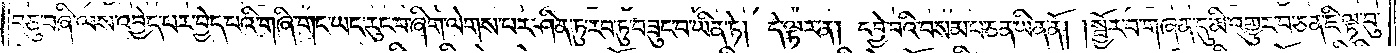བཅུ་བཞི་ལས་འབྱེད་པར་བྱེད་པའི་གཞི་གང་ཡང་རུང་བ་ཞིག་ལེགས་པར་ཤིན་ཏུ་རབ་ཏུ་བཟུང་བ་ཡིན་ཏེ། དེ་ལྟར་ན། དབྱེ་བའི་བསམ་པ་ཅན་ཡིན་ནོ། །སྦྱོར་བ་གཞན་དུ་མི་འགྱུར་བ་ཅན་ཇི་ལྟ་བུ་
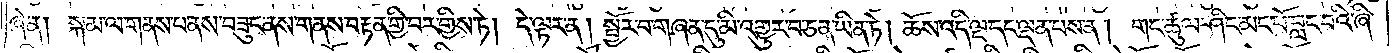ཞེ་ན། སྐམ་ལ་གནས་པ་ནས་བཟུང་ནས་གནས་བརྟན་གྱི་བར་གྱིས་ཏེ། དེ་ལྟར་ན། སྦྱོར་བ་གཞན་དུ་མི་འགྱུར་བ་ཅན་ཡིན་ཏེ། ཆོས་འདི་ལྔ་དང་ལྡན་པས་ན། གང་ཚུལ་ཤིང་མང་པོ་བླང་བའི་ཞི་
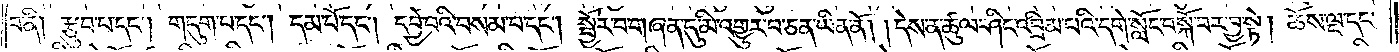བ་ནི། རྩུབ་པ་དང༌། གདུག་པ་དང༌། དམ་པོ་དང༌། དབྱེ་བའི་བསམ་པ་དང༌། སྦྱོར་བ་གཞན་དུ་མི་འགྱུར་བ་ཅན་ཡིན་ནོ། །དེས་ན་ཚུལ་ཤིང་འབྲིམ་པའི་དགེ་སློང་བསྐོ་བར་བྱ་སྟེ། ཆོས་ལྔ་དང་
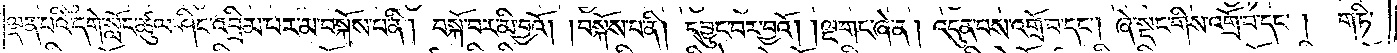ལྡན་པའི་དགེ་སློང་ཚུལ་ཤིང་འབྲིམ་པར་མ་བསྐོས་པ་ནི། བསྐོ་བར་མི་བྱའོ། །བསྐོས་པ་ནི། དབྱུང་བར་བྱའོ། །ལྔ་གང་ཞེ་ན། འདུན་པས་འགྲོ་བ་དང༌། ཞེ་སྡང་གིས་འགྲོ་བ་དང༌།   གཏི་
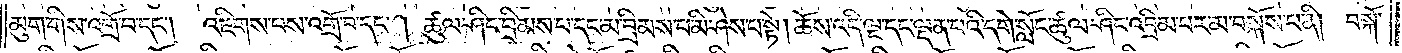མུག་གིས་འགྲོ་བ་དང༌། འཇིགས་པས་འགྲོ་བ་དང༌། ཚུལ་ཤིང་བྲིམས་པ་དང་མ་བྲིམས་པ་མི་ཤེས་པ་སྟེ། ཆོས་འདི་ལྔ་དང་ལྡན་པའི་དགེ་སློང་ཚུལ་ཤིང་འབྲིམ་མ་བསྐོས་པ་ནི། བསྐོ་
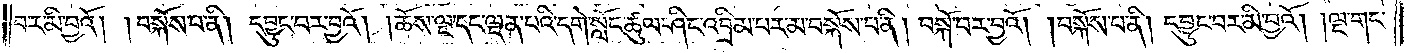བར་མི་བྱའོ། །བསྐོས་པ་ནི། དབྱུང་བར་བྱའོ། །ཆོས་ལྔ་དང་ལྡན་པའི་དགེ་སློང་ཚུལ་ཤིང་འབྲིམ་པར་མ་བསྐོས་པ་ནི། བསྐོ་བར་བྱའོ། །བསྐོས་པ་ནི། དབྱུང་བར་མི་བྱའོ། །ལྔ་གང་
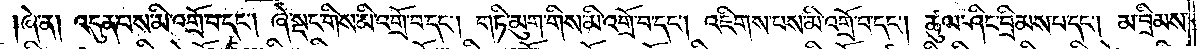།ཞེ་ན། འདུན་པས་མི་འགྲོ་བ་དང༌། ཞེ་སྡང་གིས་མི་འགྲོ་བ་དང༌། གཏི་མུག་གིས་མི་འགྲོ་བ་དང༌། འཇིགས་པས་མི་འགྲོ་བ་དང༌། ཚུལ་ཤིང་བྲིམས་པ་དང༌། མ་བྲིམས་
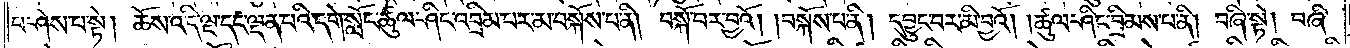པ་ཤེས་པ་སྟེ། ཆོས་འདི་ལྔ་དང་ལྡན་པའི་དགེ་སློང་ཚུལ་ཤིང་འབྲིམ་པར་མ་བསྐོས་པ་ནི། བསྐོ་བར་བྱའོ། །བསྐོས་པ་ནི། དབྱུང་བར་མི་བྱའོ། །ཚུལ་ཤིང་བྲིམས་པ་ནི། བཞི་སྟེ། བཞི་
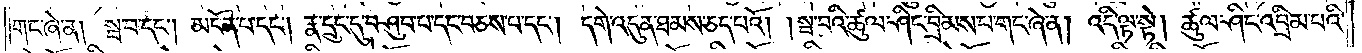གང་ཞེ་ན། སྦ་བ་དང༌། མངོན་པ་དང༌། རྣ་དྲུང་དུ་བཤུབ་པ་དང་བཅས་པ་དང༌། དགེ་འདུན་ཐམས་ཅད་པའོ། །སྦ་བའི་ཚུལ་ཤིང་བྲིམས་པ་གང་ཞེ་ན། འདི་ལྟ་སྟེ། ཚུལ་ཤིང་འབྲིམ་པའི་
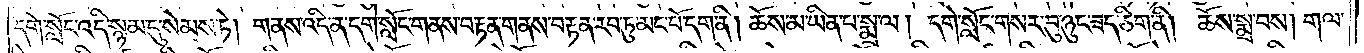དགེ་སློང་འདི་སྙམ་དུ་སེམས་ཏེ། གནས་འདི་ན་དགེ་སློང་གནས་བརྟན་གནས་བརྟན་རབ་ཏུ་མང་པོ་དག་ནི། ཆོས་མ་ཡིན་པ་སྨྲ་ལ། དགེ་སློང་གསར་བུ་ཉུང་ཟད་ཅིག་ནི། ཆོས་སྨྲ་བས། གལ་
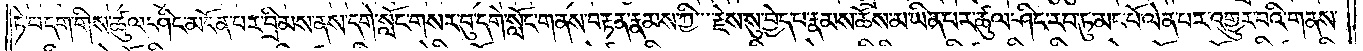ཏེ་བདག་གིས་ཚུལ་ཤིང་མངོན་པར་བྲིམས་ནས་དགེ་སློང་གསར་བུ་དགེ་སློང་གནས་བརྟན་རྣམས་ཀྱི་རྗེས་སུ་བྱེད་པ་རྣམས་ཆོས་མ་ཡིན་པར་ཚུལ་ཤིང་རབ་ཏུ་མང་པོ་ལེན་པར་འགྱུར་བའི་གནས་
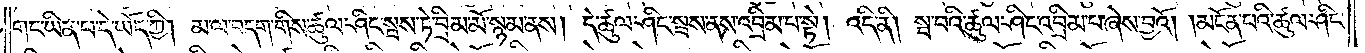གང་ཡིན་པ་དེ་ཡོད་ཀྱི། མ་ལ་བདག་གིས་ཚུལ་ཤིང་སྦས་ཏེ་བྲིམ་མོ་སྙམ་ནས། དེ་ཚུལ་ཤིང་སྦས་ནས་འབྲིམ་པ་སྟེ། འདི་ནི། སྦ་བའི་ཚུལ་ཤིང་འབྲིམ་པ་ཞེས་བྱའོ། །མངོན་པའི་ཚུལ་ཤིང་
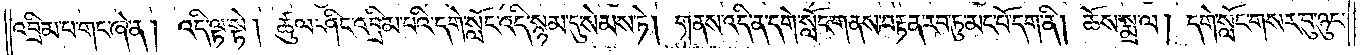འབྲིམ་པ་གང་ཞེ་ན། འདི་ལྟ་སྟེ། ཚུལ་ཤིང་འབྲིམ་པའི་དགེ་སློང་འདི་སྙམ་དུ་སེམས་ཏེ། གནས་འདི་ན་དགེ་སློང་གནས་བརྟན་རབ་ཏུ་མང་པོ་དག་ནི། ཆོས་སྨྲ་ལ། དགེ་སློང་གསར་བུ་ཉུང་
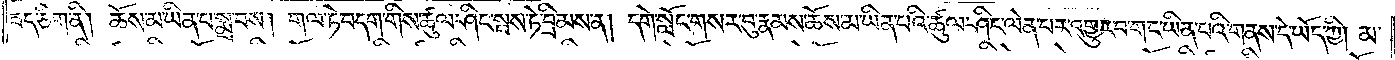ཟད་ཅིག་ནི། ཆོས་མ་ཡིན་པ་སྨྲ་བས། གལ་ཏེ་བདག་གིས་ཚུལ་ཤིང་སྦས་ཏེ་བྲིམས་ན། དགེ་སློང་གསར་བུ་རྣམས་ཆོས་མ་ཡིན་པའི་ཚུལ་ཤིང་ལེན་པར་འགྱུར་བ་གང་ཡིན་པའི་གནས་དེ་ཡོད་ཀྱི། མ་
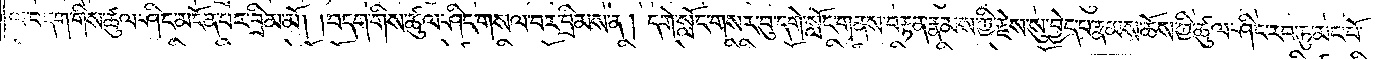ལ་བདག་གིས་ཚུལ་ཤིང་མངོན་པར་བྲིམ་མོ། །བདག་གིས་ཚུལ་ཤིང་གསལ་བར་བྲིམས་ན། དགེ་སློང་གསར་བུ་དགེ་སློང་གནས་བརྟན་རྣམས་ཀྱི་རྗེས་སུ་བྱེད་པ་རྣམས་ཆོས་ཀྱི་ཚུལ་ཤིང་རབ་ཏུ་མང་པོ་
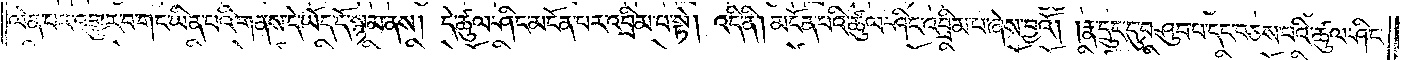ལེན་པར་འགྱུར་བ་གང་ཡིན་པའི་གནས་དེ་ཡོད་དོ་སྙམ་ནས། དེ་ཚུལ་ཤིང་མངོན་པར་འབྲིམ་པ་སྟེ། འདི་ནི། མངོན་པའི་ཚུལ་ཤིང་འབྲིམ་པ་ཞེས་བྱའོ། །རྣ་དྲུང་དུ་བཤུབ་པ་དང་བཅས་པའི་ཚུལ་ཤིང་
